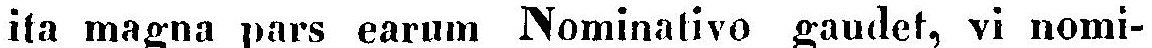ita magna pars earum Nominativo gaudet, vi nomi-
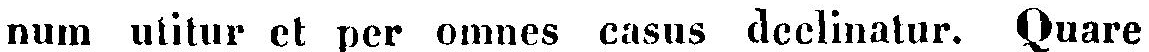num ulitur et per omnes casus declinatur. Quare
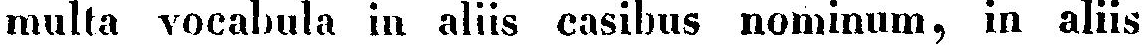multa vocabula in aliis casibus nominum, in aliis
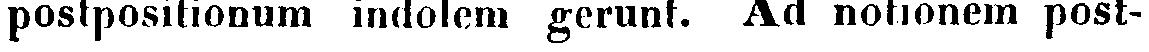postpositionum indolem gerunt. Ad notionem post-
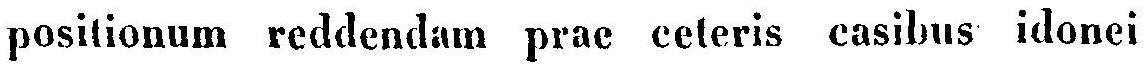positionum reddendam prae ceteris casibus idonei
